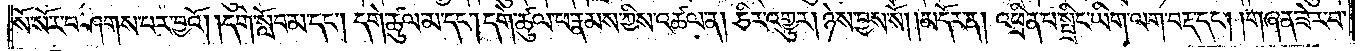སོ་སོར་བཤགས་པར་བྱའོ། །དགེ་སློབ་མ་དང༌། དགེ་ཚུལ་མ་དང༌། དགེ་ཚུལ་ཕ་རྣམས་ཀྱིས་འཚལ་ན། ཅིར་འགྱུར། ཉེས་བྱས་སོ།    །མདོར་ན། འཕྲིན་པ་སྤྲིང་ཡིག་ལག་བརྡ་དང༌། །གཞན་ཟེར་བ་
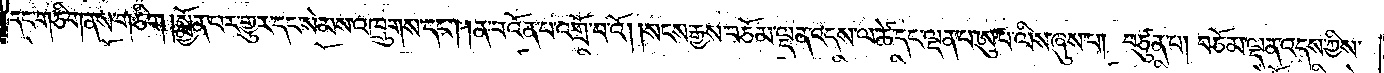དང་གཅིག་ནས་གཅིག །སྨྱོན་པར་གྱུར་དང་སེམས་འཁྲུགས་དང༌། །ན་བ་འོན་པ་འགྲོ་བ་འོ། །སངས་རྒྱས་བཅོམ་ལྡན་འདས་ལ་ཚེ་དང་ལྡན་པ་ཨུ་པ་ལིས་ཞུས་པ། བཙུན་པ། བཅོམ་ལྡན་འདས་ཀྱིས་
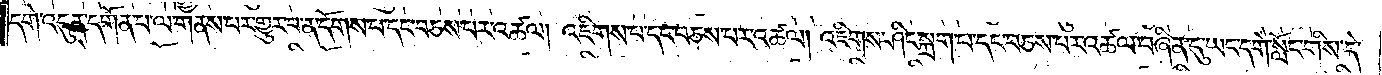དགེ་འདུན་དགོན་པ་ལ་གནས་པར་གྱུར་པ་ན་དོགས་པ་དང་བཅས་པར་འཚལ། འཇིགས་པ་དང་བཅས་པར་འཚལ། འཇིགས་ཤིང་སྐྲག་པ་དང་བཅས་པར་འཚལ་བཞིན་དུ་ཡང་དགེ་སློང་གིས་དེ་
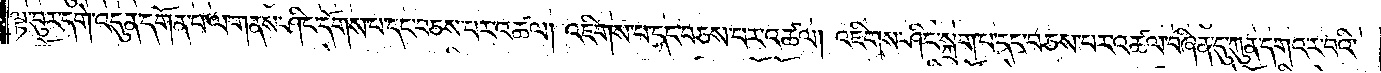ལྟ་བུར་དགེ་འདུན་དགོན་པ་ལ་གནས་ཤིང་དོགས་པ་དང་བཅས་པར་འཚལ། འཇིགས་པ་དང་བཅས་པ་འཚལ། འཇིགས་ཤིང་སྐྲག་པ་དང་བཅས་པར་འཚལ་བཞིན་དུ་ཀུན་དགའ་ར་བའི་
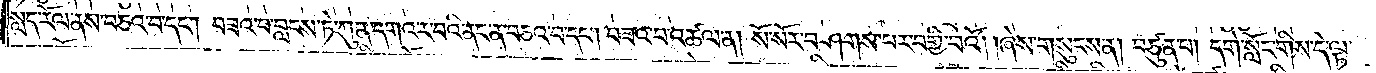སླད་རོལ་ནས་བཅའ་བ་དང༌། བཟའ་བ་བླངས་ཏེ་ཀུན་དགའ་ར་བའི་ནང་ན་བཅའ་བ་དང༌། བཟའ་བ་འཚལ་ན། སོ་སོར་བཤགས་པར་བགྱི་བའོ། །ཞེས་གསུངས་ན། བཙུན་པ། དགེ་སློང་གིས་དེ་ལྟ་
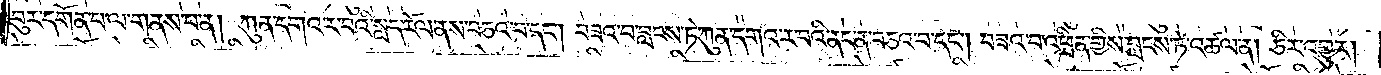བུར་དགོན་པ་ལ་གནས་པ་ན། ཀུན་དགའ་ར་བའི་སླད་རོལ་ནས་བཅའ་བ་དང༌། བཟའ་བ་བླངས་ཏེ་ཀུན་དགའ་ར་བའི་ནང་ན་བཅའ་བ་དང༌། བཟའ་བ་འཕྲིན་གྱིས་བླངས་ཏེ་འཚལ་ན། ཅིར་འགྱུར།
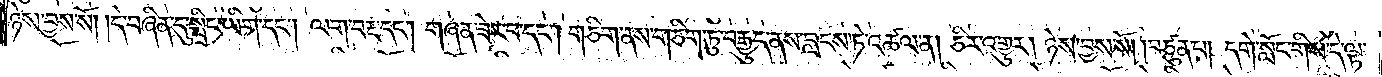ཉེས་བྱས་སོ། །དེ་བཞིན་དུ་སྤྲིང་ཡིག་དང༌། ལག་བརྡ་དང༌། གཞན་ཟེར་བ་དང༌། གཅིག་ནས་གཅིག་ཏུ་བརྒྱུད་ནས་བླངས་ཏེ་འཚལ་ན། ཅིར་འགྱུར། ཉེས་བྱས་སོ། །བཙུན་པ། དགེ་སློང་གིས་དེ་ལྟ་
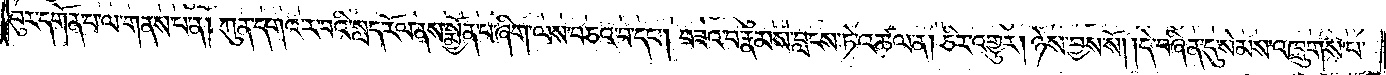བུར་དགོན་པ་ལ་གནས་པ་ན། ཀུན་དགའ་ར་བའི་སླད་རོལ་ནས་སྨྱོན་པ་ཞིག་ལས་བཅའ་བ་དང༌། བཟའ་བ་རྣམས་བླངས་ཏེ་འཚལ་ན། ཅིར་འགྱུར། ཉེས་བྱས་སོ། །དེ་བཞིན་དུ་སེམས་འཁྲུགས་པ་
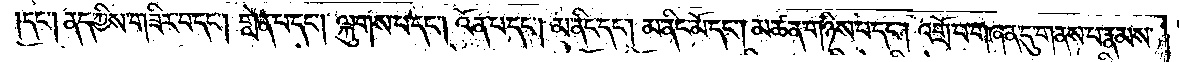དང༌། ནད་ཀྱིས་གཟིར་བ་དང༌། གླེན་པ་དང༌། ལྐུགས་པ་དང༌། འོན་པ་དང༌། མ་ནིང་དང༌། མ་ནིང་མོ་དང༌། མཚན་གཉིས་པ་དང༌། འགྲོ་བ་གཞན་དུ་གནས་པ་རྣམས་
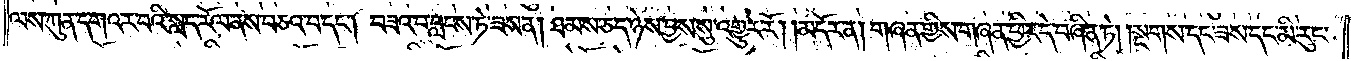ལས་ཀུན་དགའ་ར་བའི་སླད་རོལ་ནས་བཅའ་བ་དང༌། བཟའ་བ་བླངས་ཏེ་ཟས་ན། ཐམས་ཅད་ཉེས་བྱས་སུ་འགྱུར་རོ། །མདོར་ན། གཞན་གྱིས་གཞན་ཕྱིར་དེ་བཞིན་ཏེ། །སྔགས་དང་ཟས་དང་མི་རུང་
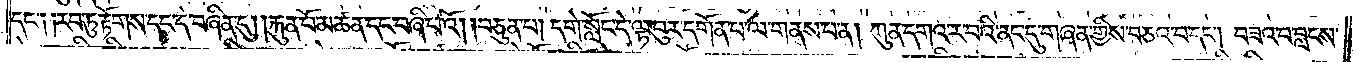དང་༑ ༑རབ་ཏུ་རྟོགས་དང་དེ་བཞིན་དུ། །རྐུན་པོ་མཚན་དང་བཞི་པའོ། །བཙུན་པ། དགེ་སློང་དེ་ལྟ་བུར་དགོན་པ་ལ་གནས་པ་ན། ཀུན་དགའ་ར་བའི་ནང་དུ་གཞན་གྱིས་བཅའ་བ་དང༌། བཟའ་བ་བླངས་
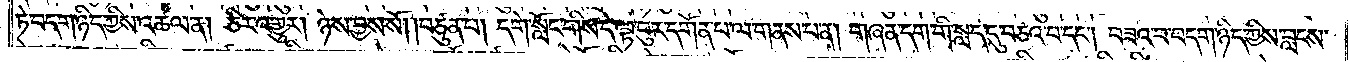ཏེ་བདག་ཉིད་ཀྱིས་འཚལ་ན། ཅིར་འགྱུར། ཉེས་བྱས་སོ། །བཙུན་པ། དགེ་སློང་གིས་དེ་ལྟ་བུར་དགོན་པ་ལ་གནས་པ་ན། གཞན་དག་གི་སླད་དུ་བཅའ་བ་དང༌། བཟའ་བ་བདག་ཉིད་ཀྱིས་བླངས་
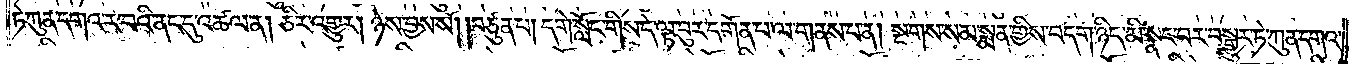ཏེ་ཀུན་དགའ་ར་བའི་ནང་དུ་འཚལ་ན། ཅིར་འགྱུར། ཉེས་བྱས་སོ། །བཙུན་པ། དགེ་སློང་གིས་དེ་ལྟ་བུར་དགོན་པ་ལ་གནས་པ་ན། སྔགས་སམ་སྨན་གྱིས་བདག་ཉིད་མི་སྣང་བར་བསྒྱུར་ཏེ་ཀུན་དགའ་
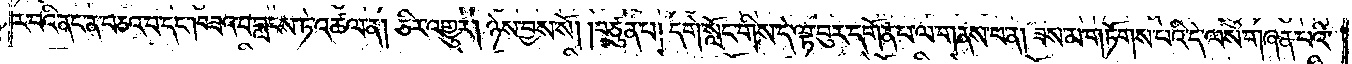ར་བའི་ནང་ན་བཅའ་བ་དང༌། བཟའ་བ་བླངས་ཏེ་འཚལ་ན། ཅིར་འགྱུར། ཉེས་བྱས་སོ། །བཙུན་པ། དགེ་སློང་གིས་དེ་ལྟ་བུར་དགོན་པ་ལ་གནས་པ་ན། ཟས་མ་གཏོགས་པའི་དེ་ལས་གཞན་པའི་
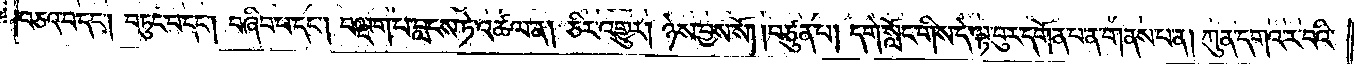བཅའ་བ་དང༌། བཏུང་བ་དང༌། བཞིབ་པ་དང༌། བལྡག་པ་བླངས་ཏེ་འཚལ་ན། ཅིར་འགྱུར། ཉེས་བྱས་སོ། །བཙུན་པ། དགེ་སློང་གིས་དེ་ལྟ་བུར་དགོན་པ་ན་གནས་པ་ན། ཀུན་དགའ་ར་བའི་
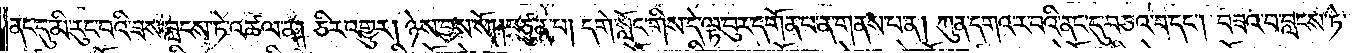ནང་དུ་མི་རུང་བའི་ཟས་བླངས་ཏེ་འཚལ་ན། ཅིར་འགྱུར། ཉེས་བྱས་སོ། །བཙུན་པ། དགེ་སློང་གིས་དེ་ལྟ་བུར་དགོན་པ་ན་གནས་པ་ན། ཀུན་དགའ་ར་བའི་ནང་དུ་བཅའ་བ་དང༌། བཟའ་བ་བླངས་ཏེ་
